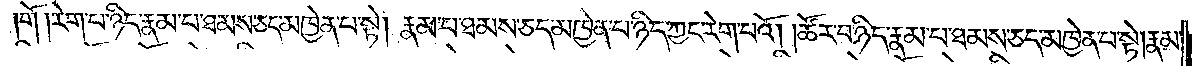གོ །རེག་པ་ཉིད་རྣམ་པ་ཐམས་ཅད་མཁྱེན་པ་སྟེ། རྣམ་པ་ཐམས་ཅད་མཁྱེན་པ་ཉིད་ཀྱང་རེག་པའོ། །ཚོར་བ་ཉིད་རྣམ་པ་ཐམས་ཅད་མཁྱེན་པ་སྟེ། རྣམ་
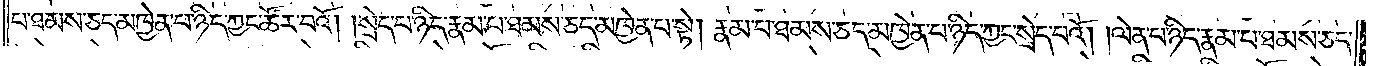པ་ཐམས་ཅད་མཁྱེན་པ་ཉིད་ཀྱང་ཚོར་བའོ། །སྲེད་པ་ཉིད་རྣམ་པ་ཐམས་ཅད་མཁྱེན་པ་སྟེ། རྣམ་པ་ཐམས་ཅད་མཁྱེན་པ་ཉིད་ཀྱང་སྲེད་པའོ། །ལེན་པ་ཉིད་རྣམ་པ་ཐམས་ཅད་
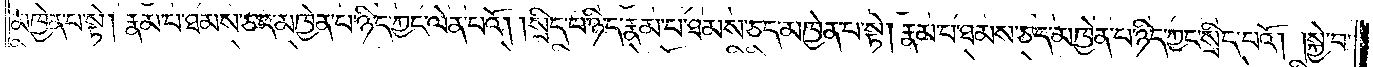མཁྱེན་པ་སྟེ། རྣམ་པ་ཐམས་ཅད་མཁྱེན་པ་ཉིད་ཀྱང་ལེན་པའོ། །སྲིད་པ་ཉིད་རྣམ་པ་ཐམས་ཅད་མཁྱེན་པ་སྟེ། རྣམ་པ་ཐམས་ཅད་མཁྱེན་པ་ཉིད་ཀྱང་སྲིད་པའོ། །སྐྱེ་བ་
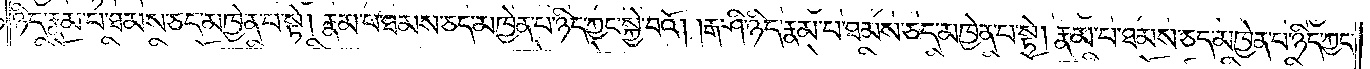ཉིད་རྣམ་པ་ཐམས་ཅད་མཁྱེན་པ་སྟེ། རྣམ་པ་ཐམས་ཅད་མཁྱེན་པ་ཉིད་ཀྱང་སྐྱེ་བའོ། །རྒ་ཤི་ཉིད་རྣམ་པ་ཐམས་ཅད་མཁྱེན་པ་སྟེ། རྣམ་པ་ཐམས་ཅད་མཁྱེན་པ་ཉིད་ཀྱང་
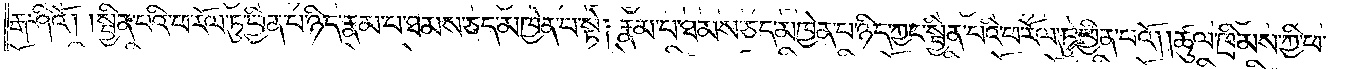རྒ་ཤིའོ། །སྦྱིན་པའི་ཕ་རོལ་ཏུ་ཕྱིན་པ་ཉིད་རྣམ་པ་ཐམས་ཅད་མཁྱེན་པ་སྟེ། རྣམ་པ་ཐམས་ཅད་མཁྱེན་པ་ཉིད་ཀྱང་སྦྱིན་པའི་ཕ་རོལ་ཏུ་ཕྱིན་པའོ། །ཚུལ་ཁྲིམས་ཀྱི་ཕ་
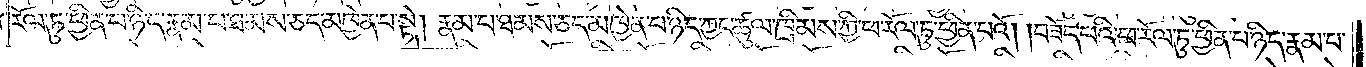རོལ་ཏུ་ཕྱིན་པ་ཉིད་རྣམ་པ་ཐམས་ཅད་མཁྱེན་པ་སྟེ། རྣམ་པ་ཐམས་ཅད་མཁྱེན་པ་ཉིད་ཀྱང་ཚུལ་ཁྲིམས་ཀྱི་ཕ་རོལ་ཏུ་ཕྱིན་པའོ། །བཟོད་པའི་ཕ་རོལ་ཏུ་ཕྱིན་པ་ཉིད་རྣམ་པ་
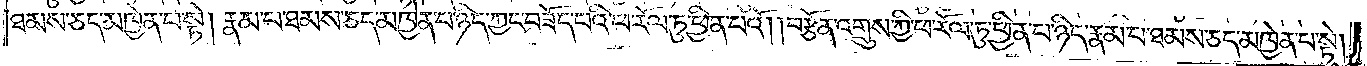ཐམས་ཅད་མཁྱེན་པ་སྟེ། རྣམ་པ་ཐམས་ཅད་མཁྱེན་པ་ཉིད་ཀྱང་བཟོད་པའི་ཕ་རོལ་ཏུ་ཕྱིན་པའོ། །བརྩོན་འགྲུས་ཀྱི་ཕ་རོལ་ཏུ་ཕྱིན་པ་ཉིད་རྣམ་པ་ཐམས་ཅད་མཁྱེན་པ་སྟེ།
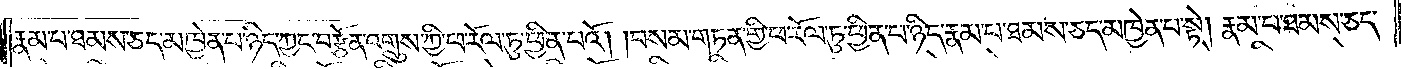རྣམ་པ་ཐམས་ཅད་མཁྱེན་པ་ཉིད་ཀྱང་བརྩོན་འགྲུས་ཀྱི་ཕ་རོལ་ཏུ་ཕྱིན་པའོ། །བསམ་གཏན་གྱི་ཕ་རོལ་ཏུ་ཕྱིན་པ་ཉིད་རྣམ་པ་ཐམས་ཅད་མཁྱེན་པ་སྟེ། རྣམ་པ་ཐམས་ཅད་
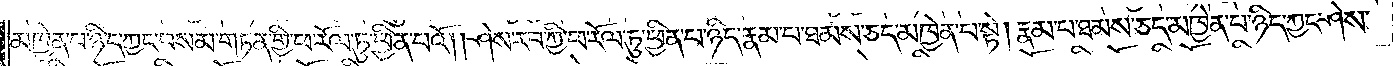མཁྱེན་པ་ཉིད་ཀྱང་བསམ་གཏན་གྱི་ཕ་རོལ་ཏུ་ཕྱིན་པའོ། །ཤེས་རབ་ཀྱི་ཕ་རོལ་ཏུ་ཕྱིན་པ་ཉིད་རྣམ་པ་ཐམས་ཅད་མཁྱེན་པ་སྟེ། རྣམ་པ་ཐམས་ཅད་མཁྱེན་པ་ཉིད་ཀྱང་ཤེས་
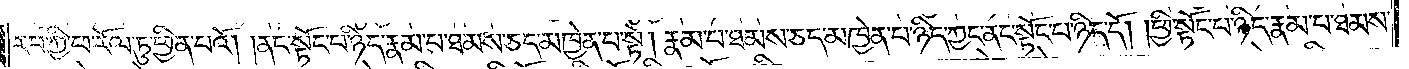རབ་ཀྱི་ཕ་རོལ་ཏུ་ཕྱིན་པའོ། །ནང་སྟོང་པ་ཉིད་རྣམ་པ་ཐམས་ཅད་མཁྱེན་པ་སྟེ། རྣམ་པ་ཐམས་ཅད་མཁྱེན་པ་ཉིད་ཀྱང་ནང་སྟོང་པ་ཉིད་དོ། །ཕྱི་སྟོང་པ་ཉིད་རྣམ་པ་ཐམས་
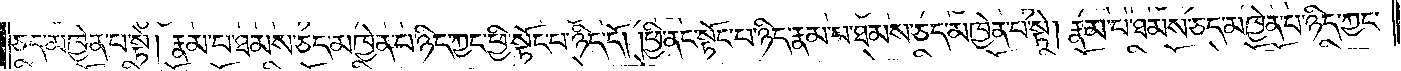ཅད་མཁྱེན་པ་སྟེ། རྣམ་པ་ཐམས་ཅད་མཁྱེན་པ་ཉིད་ཀྱང་ཕྱི་སྟོང་པ་ཉིད་དོ། །ཕྱི་ནང་སྟོང་པ་ཉིད་རྣམ་པ་ཐམས་ཅད་མཁྱེན་པ་སྟེ། རྣམ་པ་ཐམས་ཅད་མཁྱེན་པ་ཉིད་ཀྱང་
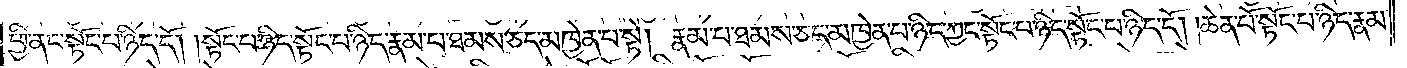ཕྱི་ནང་སྟོང་པ་ཉིད་དོ། །སྟོང་པ་ཉིད་སྟོང་པ་ཉིད་རྣམ་པ་ཐམས་ཅད་མཁྱེན་པ་སྟེ། རྣམ་པ་ཐམས་ཅད་མཁྱེན་པ་ཉིད་ཀྱང་སྟོང་པ་ཉིད་སྟོང་པ་ཉིད་དོ། །ཆེན་པོ་སྟོང་པ་ཉིད་རྣམ་
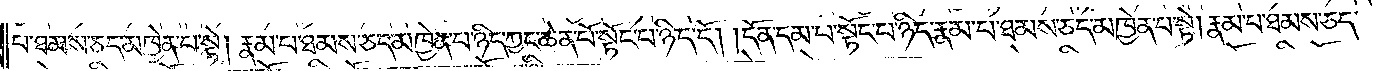པ་ཐམས་ཅད་མཁྱེན་པ་སྟེ། རྣམ་པ་ཐམས་ཅད་མཁྱེན་པ་ཉིད་ཀྱང་ཆེན་པོ་སྟོང་པ་ཉིད་དོ། །དོན་དམ་པ་སྟོང་པ་ཉིད་རྣམ་པ་ཐམས་ཅད་མཁྱེན་པ་སྟེ། རྣམ་པ་ཐམས་ཅད་
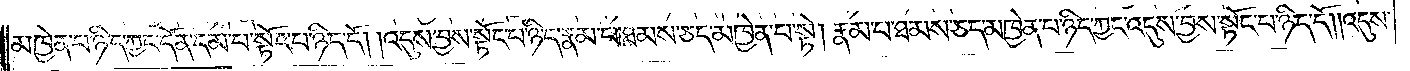མཁྱེན་པ་ཉིད་ཀྱང་དོན་དམ་པ་སྟོང་པ་ཉིད་དོ། །འདུས་བྱས་སྟོང་པ་ཉིད་རྣམ་པ་ཐམས་ཅད་མཁྱེན་པ་སྟེ། རྣམ་པ་ཐམས་ཅད་མཁྱེན་པ་ཉིད་ཀྱང་འདུས་བྱས་སྟོང་པ་ཉིད་དོ། །འདུས་
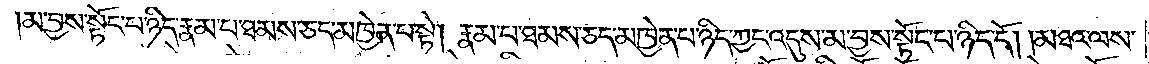མ་བྱས་སྟོང་པ་ཉིད་རྣམ་པ་ཐམས་ཅད་མཁྱེན་པ་སྟེ། རྣམ་པ་ཐམས་ཅད་མཁྱེན་པ་ཉིད་ཀྱང་འདུས་མ་བྱས་སྟོང་པ་ཉིད་དོ། །མཐའ་ལས་
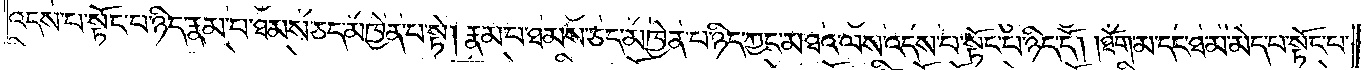འདས་པ་སྟོང་པ་ཉིད་རྣམ་པ་ཐམས་ཅད་མཁྱེན་པ་སྟེ། རྣམ་པ་ཐམས་ཅད་མཁྱེན་པ་ཉིད་ཀྱང་མཐའ་ལས་འདས་པ་སྟོང་པ་ཉིད་དོ། །ཐོག་མ་དང་ཐ་མ་མེད་པ་སྟོང་པ་
